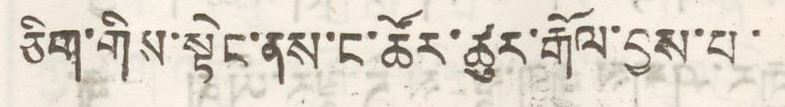ཅིག་གིས་སྟེང་ནས་ང་ཚོར་རྒོལ་བྱས་པ་
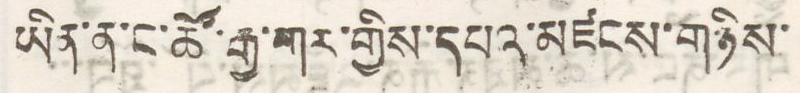ཡིན་ན་ང་ཚོ་རྒྱ་གར་གྱིས་དཔའ་མཛངས་གཉིས་
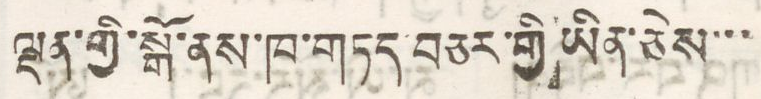ལྡན་གྱི་སྒོ་ནས་ཁ་གཏད་བཅར་གྱི ཡིན་ཅེས་་་
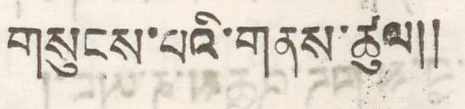གསུངས་པའི་གནས་ཚུལ།།
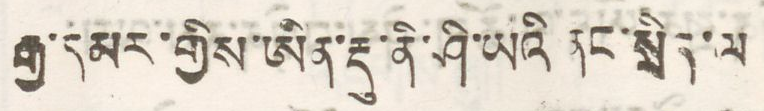རྒྱ་དམར་གྱིས་ཨིན་རྡུ་ནི་ཤི་ཡའི ནང་སྲིད་ལ
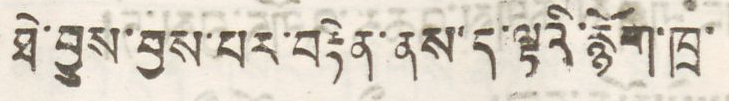ཐེ་བྱུས་བྱས་པར་བརྟེན་ནས་ད་ལྟའི་རྙོག་ཁྲ་
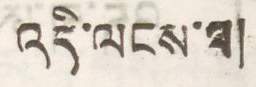འདི་ལངས་བ།
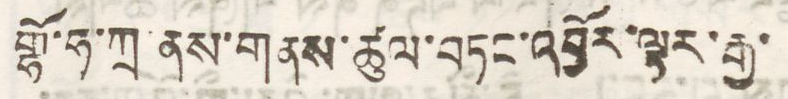གྷོ་ཧ་ཀྲ་ནས་གནས་ཚུལ་བཏང་འབྱོར་ལྟར་རྒྱ་
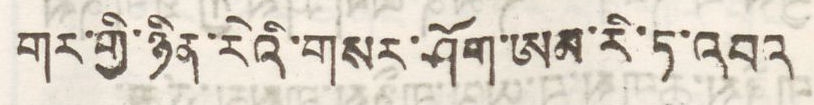གར་གྱི་ཉིན་རེའི་གསར་ཤོག་ཨམ་རི་ཏ་འབའ
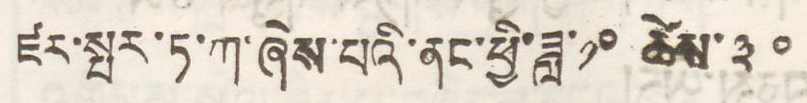ཛར་སྤར་ཏ་ཀ་ཞེས་པའི་ནང་ཕྱི་ཟླ ༡༠ ཚེས་ ༣༠
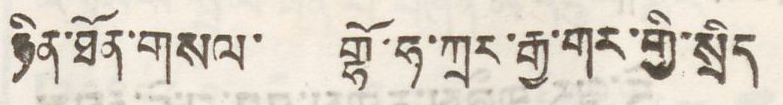ཉིན་ཐོན་གསལ་ གྷོ་ཧ་ཀྲར་རྒྱ་གར་གྱི་སྲིད
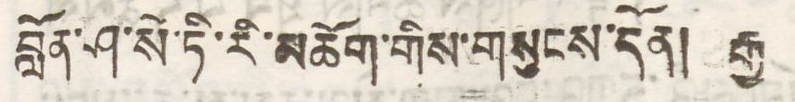བློན་ཤ་སེ་ཏི་རི་མཆོག་གིས་གསུངས་དོན། རྒྱ
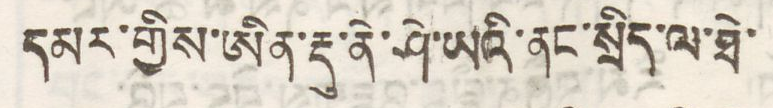དམར་གྱཻས་ཨིན་རྡུ་ནེ་ཤི་ཡའི་ནང་སྲིད་ལ་ཐེ་
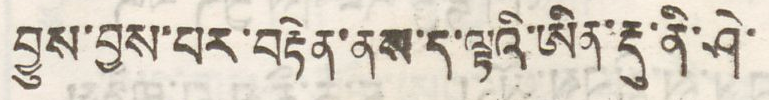བྱུས་བྱས་པར་བརྟེན་ནས་ད་ལྟའི་ཨིན་རྡུ་ནི་ཤེ་
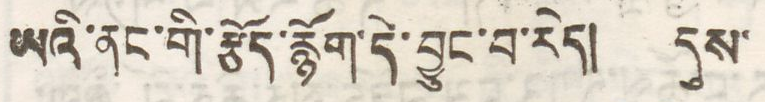པའི་ནང་གི་རྩོད་རྙོག་དེ་བྱུང་བ་རེད། དུས་
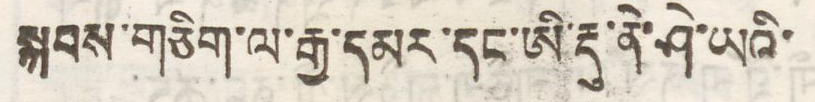སྐབས་གཅིག་ལ་རྒྱ་དམར་དང་ཨི་རྡུ་ནེ་ཤེ་ཡའི་
